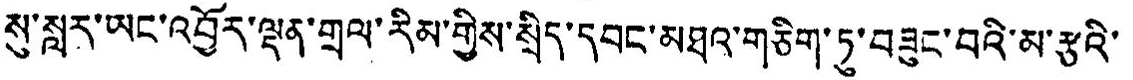སུ་སླར་ཡང་འབྱོར་ལྡན་གྲལ་རིམ་གྱི་སྲིད་དབང་མཐའ་གཅིག་ཏུ་བཟུང་བའི་མ་རྩའི་
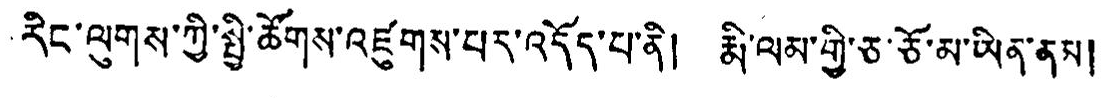རིང་ལུགས་ཀྱི་སྤྱི་ཚོགས་འཛུགས་པར་འདོད་པ་ནི། རྨི་ལམ་གྱི་ཅ་ཅོ་མ་ཡིན་ནམ།
